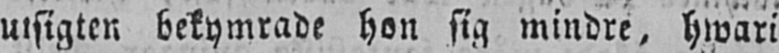utsigten bekymrade hon sig mindre, hwari
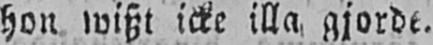hon wiszt icke illa gjorde.
